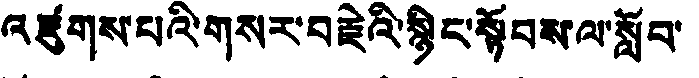འཛུགས་པའི་གསར་བརྗེའི་སྙིང་སྟོབས་ལ་སློབ་
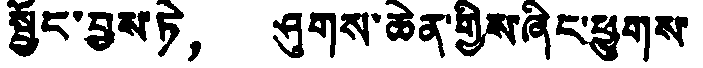སྦྱོང་བྱས་ཏེ， ཤུགས་ཆེན་གྱིས་ཞིང་ཕྱུགས་
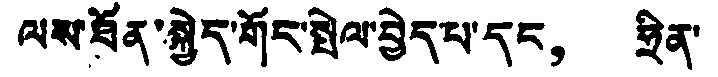ལས་ཐོན་སྐྱེད་གོང་སྤེལ་བྱེད་པ་དང， ཧྲིན་
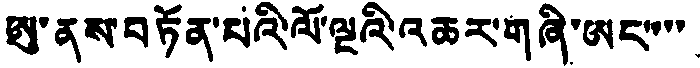ཨུ་ནས་བཏོན་པའི་ལོ་ལྔའི་འཆར་གཞི་ཨང་་་་
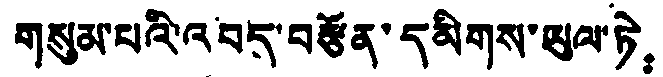གསུམ་པའི་འབད་བརྩོན་དམིགས་ཡུལ་ཏེ：
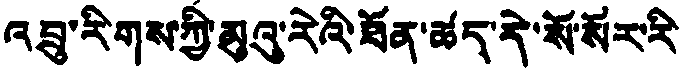འབྲུ་རིགས་ཀྱི་མུའུ་རེའི་ཐོན་ཚད་དེ་སོ་སོར་རི་
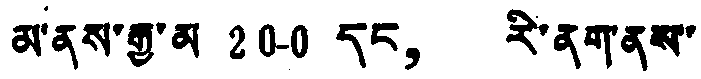མ་ནས་རྒྱ་མ 200 དང， རི་ནག་ནས་
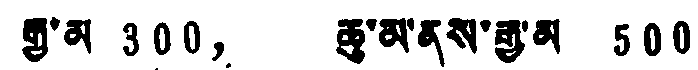རྒྱུ་མ 300， ཆུ་མ་ནས་རྒྱ་མ 500
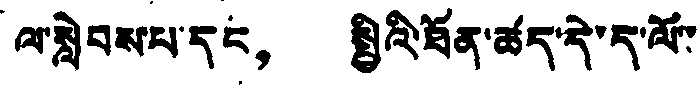ལ་སླེབས་པ་དང， སྤྱིའི་ཐོན་ཚད་དེ་ད་ལོ་་
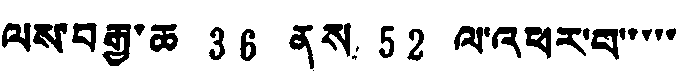ལས་བརྒྱ་ཆ 36 ནས 52 ལ་འཕར་བ་་་་་
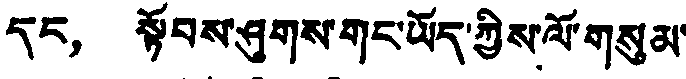དང， སྟོབས་ཤུགས་གང་ཡོད་ཀྱིས་ལོ་གསུམ་
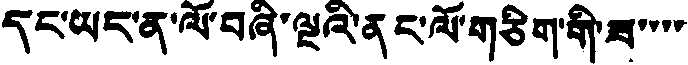དང་ཡང་ན་ལོ་བཞི་ལྔའི་ནང་ལོ་གཅིག་གི་ཟ་་་་
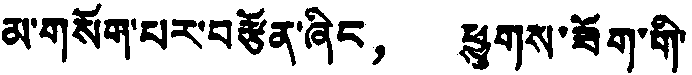མ་གསོག་པར་བརྩོན་ཞིང， ཕྱུགས་ཟོག་གི་
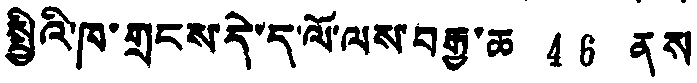སྤྱིའི་ཁ་གྲངས་དེ་ད་ལོ་ལས་བརྒྱ་ཆ 46 ནས
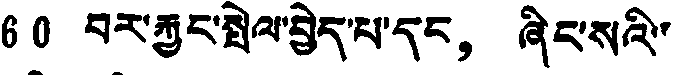60 བར་རྐྱང་སྤེལ་བྱེད་པ་དང， ཞིང་སའི་
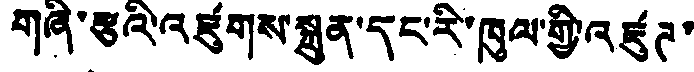གཞི་རྩའི་འཛུགས་སྐྲུན་དང་རི་ཁུལ་གྱི་འཛུཊ་
